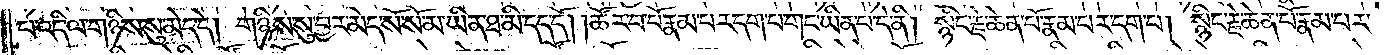པ་འདི་ལ་གཉིས་སུ་མེད་དེ། གཉིས་སུ་བྱར་མེད་སོ་སོ་མ་ཡིན་ཐ་མི་དད་དོ། །ཚོར་བ་པོ་རྣམ་པར་དག་པ་གང་ཡིན་པ་དེ་ནི། སྙིང་རྗེ་ཆེན་པོ་རྣམ་པར་དག་པ། སྙིང་རྗེ་ཆེན་པོ་རྣམ་པར་
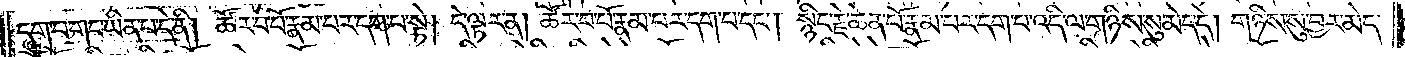དག་པ་གང་ཡིན་པ་དེ་ནི། ཚོར་བ་པོ་རྣམ་པར་དག་པ་སྟེ། དེ་ལྟར་ན། ཚོར་བ་པོ་རྣམ་པར་དག་པ་དང༌། སྙིང་རྗེ་ཆེན་པོ་རྣམ་པར་དག་པ་འདི་ལ་གཉིས་སུ་མེད་དེ། གཉིས་སུ་བྱར་མེད་
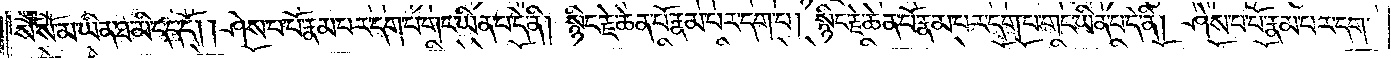སོ་སོ་མ་ཡིན་ཐ་མི་དད་དོ། །ཤེས་པ་པོ་རྣམ་པར་དག་པ་གང་ཡིན་པ་དེ་ནི། སྙིང་རྗེ་ཆེན་པོ་རྣམ་པར་དག་པ། སྙིང་རྗེ་ཆེན་པོ་རྣམ་པར་དག་པ་གང་ཡིན་པ་དེ་ནི། ཤེས་པ་པོ་རྣམ་པར་དག་
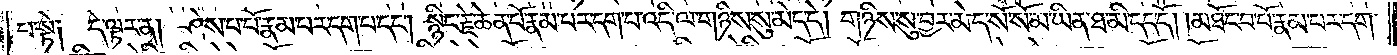པ་སྟེ༑ དེ་ལྟར་ན། ཤེས་པ་པོ་རྣམ་པར་དག་པ་དང༌། སྙིང་རྗེ་ཆེན་པོ་རྣམ་པར་དག་པ་འདི་ལ་གཉིས་སུ་མེད་དེ། གཉིས་སུ་བྱར་མེད་སོ་སོ་མ་ཡིན་ཐ་མི་དད་དོ། །མཐོང་པ་པོ་རྣམ་པར་དག་
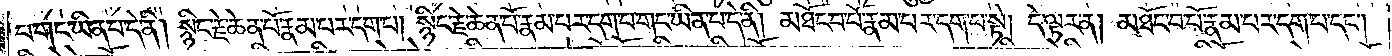པ་གང་ཡིན་པ་དེ་ནི། སྙིང་རྗེ་ཆེན་པོ་རྣམ་པར་དག་པ། སྙིང་རྗེ་ཆེན་པོ་རྣམ་པར་དག་པ་གང་ཡིན་པ་དེ་ནི། མཐོང་བ་པོ་རྣམ་པར་དག་པ་སྟེ། དེ་ལྟར་ན། མཐོང་བ་པོ་རྣམ་པར་དག་པ་དང༌།
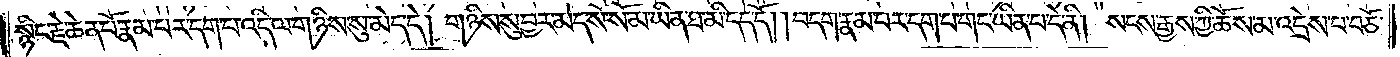སྙིང་རྗེ་ཆེན་པོ་རྣམ་པར་དག་པ་འདི་ལ་གཉིས་སུ་མེད་དེ། གཉིས་སུ་བྱར་མེད་སོ་སོ་མ་ཡིན་ཐ་མི་དད་དོ། །བདག་རྣམ་པར་དག་པ་གང་ཡིན་པ་དེ་ནི། སངས་རྒྱས་ཀྱི་ཆོས་མ་འདྲེས་པ་བཅོ་
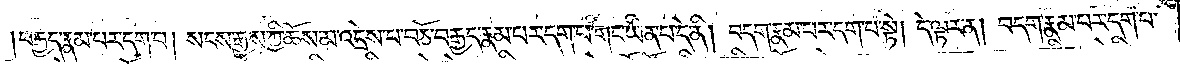བརྒྱད་རྣམ་པར་དག་པ། སངས་རྒྱས་ཀྱི་ཆོས་མ་འདྲེས་པ་བཅོ་བརྒྱད་རྣམ་པར་དག་པ་གང་ཡིན་པ་དེ་ནི། བདག་རྣམ་པར་དག་པ་སྟེ། དེ་ལྟར་ན། བདག་རྣམ་པར་དག་པ་
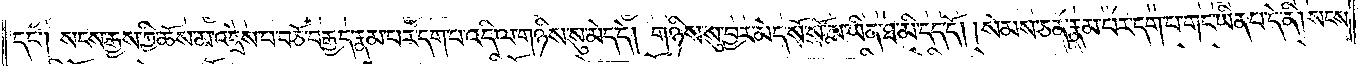དང༌། སངས་རྒྱས་ཀྱི་ཆོས་མ་འདྲེས་པ་བཅོ་བརྒྱད་རྣམ་པར་དག་པ་འདི་ལ་གཉིས་སུ་མེད་དེ། གཉིས་སུ་བྱར་མེད་སོ་སོ་མ་ཡིན་ཐ་མི་དད་དོ། །སེམས་ཅན་རྣམ་པར་དག་པ་གང་ཡིན་པ་དེ་ནི། སངས་
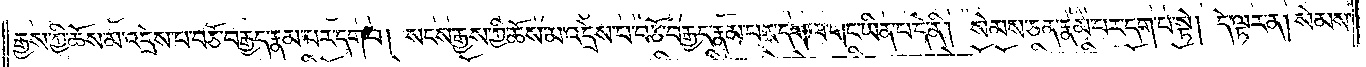རྒྱས་ཀྱི་ཆོས་མ་འདྲེས་པ་བཅོ་བརྒྱད་རྣམ་པར་དག་པ། སངས་རྒྱས་ཀྱི་ཆོས་མ་འདྲེས་པ་བཅོ་བརྒྱད་རྣམ་པར་དག་པ་གང་ཡིན་པ་དེ་ནི། སེམས་ཅན་རྣམ་པར་དག་པ་སྟེ། དེ་ལྟར་ན། སེམས་
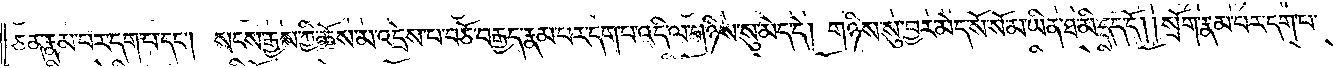ཅན་རྣམ་པར་དག་པ་དང༌། སངས་རྒྱས་ཀྱི་ཆོས་མ་འདྲེས་པ་བཅོ་བརྒྱད་རྣམ་པར་དག་པ་འདི་ལ་གཉིས་སུ་མེད་དེ། གཉིས་སུ་བྱར་མེད་སོ་སོ་མ་ཡིན་ཐ་མི་དད་དོ། །སྲོག་རྣམ་པར་དག་པ་
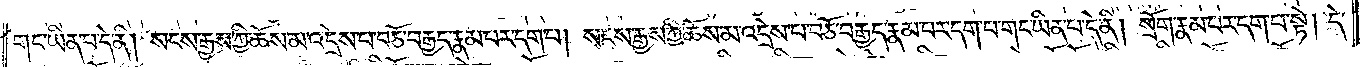གང་ཡིན་པ་དེ་ནི། སངས་རྒྱས་ཀྱི་ཆོས་མ་འདྲེས་པ་བཅོ་བརྒྱད་རྣམ་པར་དག་པ། སངས་རྒྱས་ཀྱི་ཆོས་མ་འདྲེས་པ་བཅོ་བརྒྱད་རྣམ་པར་དག་པ་གང་ཡིན་པ་དེ་ནི། སྲོག་རྣམ་པར་དག་པ་སྟེ། དེ་
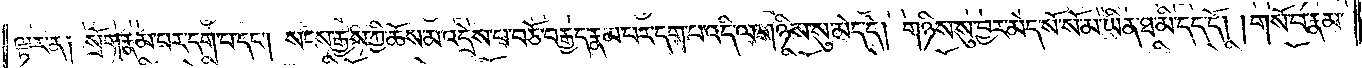ལྟར་ན། སྲོག་རྣམ་པར་དག་པ་དང༌། སངས་རྒྱས་ཀྱི་ཆོས་མ་འདྲེས་པ་བཅོ་བརྒྱད་རྣམ་པར་དག་པ་འདི་ལ་གཉིས་སུ་མེད་དེ། གཉིས་སུ་བྱར་མེད་སོ་སོ་མ་ཡིན་ཐ་མི་དད་དོ། །གསོ་བ་རྣམ་
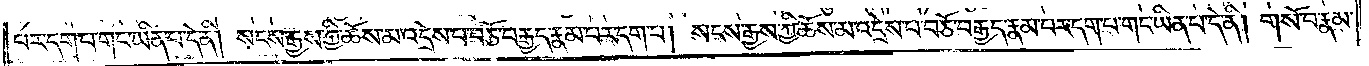པར་དག་པ་གང་ཡིན་པ་དེ་ནི། སངས་རྒྱས་ཀྱི་ཆོས་མ་འདྲེས་པ་བཅོ་བརྒྱད་རྣམ་པར་དག་པ། སངས་རྒྱས་ཀྱི་ཆོས་མ་འདྲེས་པ་བཅོ་བརྒྱད་རྣམ་པར་དག་པ་གང་ཡིན་པ་དེ་ནི། གསོ་བ་རྣམ་
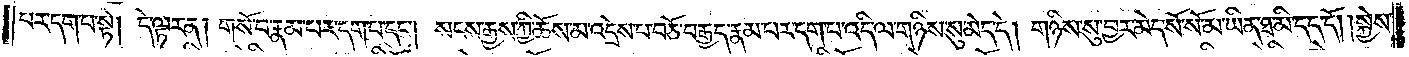པར་དག་པ་སྟེ། དེ་ལྟར་ན། གསོ་བ་རྣམ་པར་དག་པ་དང༌། སངས་རྒྱས་ཀྱི་ཆོས་མ་འདྲེས་པ་བཅོ་བརྒྱད་རྣམ་པར་དག་པ་འདི་ལ་གཉིས་སུ་མེད་དེ། གཉིས་སུ་བྱར་མེད་སོ་སོ་མ་ཡིན་ཐ་མི་དད་དོ། །སྐྱེས་
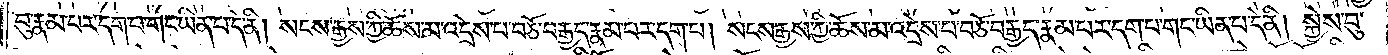བུ་རྣམ་པར་དག་པ་གང་ཡིན་པ་དེ་ནི། སངས་རྒྱས་ཀྱི་ཆོས་མ་འདྲེས་པ་བཅོ་བརྒྱད་རྣམ་པར་དག་པ། སངས་རྒྱས་ཀྱི་ཆོས་མ་འདྲེས་པ་བཅོ་བརྒྱད་རྣམ་པར་དག་པ་གང་ཡིན་པ་དེ་ནི། སྐྱེས་བུ་
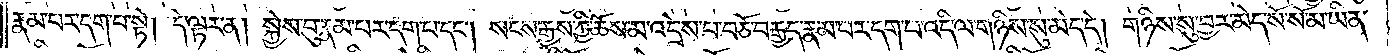རྣམ་པར་དག་པ་སྟེ། དེ་ལྟར་ན། སྐྱེས་བུ་རྣམ་པར་དག་པ་དང༌། སངས་རྒྱས་ཀྱི་ཆོས་མ་འདྲེས་པ་བཅོ་བརྒྱད་རྣམ་པར་དག་པ་འདི་ལ་གཉིས་སུ་མེད་དེ། གཉིས་སུ་བྱར་མེད་སོ་སོ་མ་ཡིན་
